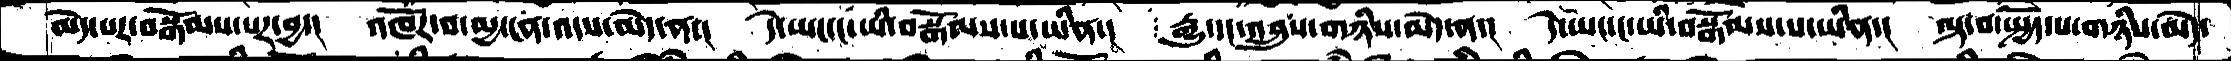མེད་པར་བསྒོམས་པར་བྱ་།  འཁོར་བ་མྱ་ངན་འདས་མེད་ན་།  དེ་ཡང་ང་ཡི་བསྒོམས་པ་ཡིན་།  རྒྱུ་དང་འབྲུས་གཉིས་མེད་ན་།  དེ་ཡང་ང་ཡི་བསྒོམས་པ་ཡིན་།  ལྟ་བ་སྤྱོད་པ་གཉིས་མེད་
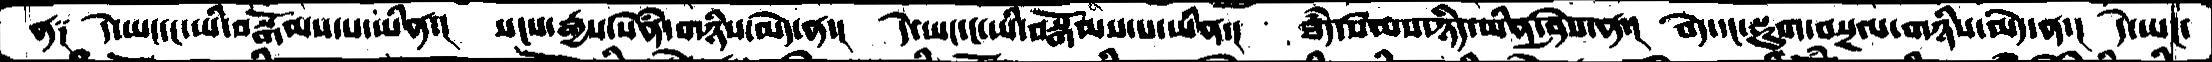ན༑  དེ་ཡང་ང་ཡི་བསྒོམས་པ་ཡིན་།  སངས་རྒྱས་སེཾན་གཉིས་མེད་ན་།  དེ་ཡང་ང་ཡི་བསྒོམས་པ་ཡིན་།  ཐཾད་སེམས་ཉིད་ཡིན་ཤེས་ན་།  བདེ་དང་སྡུག་བསྔལ་གཉིས་མེད་ན་།  དེ་ཡང་
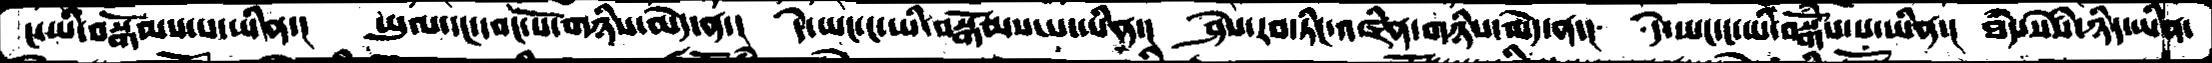ང་ཡི་བསྒོམས་པ་ཡིན་།  ཡུལ་དང་དབང་པོ་གཉིས་མེད་ན་།  དེ་ཡང་ང་ཡི་བསྒོམས་པ་ཡིན་།  ཤེས་རབ་ཏིང་འཛིན་གཉིས་མེད་ན་།  དེ་ཡང་ང་ཡི་བསྒོམས་པ་ཡིན་།  ཐཾད་སེཾས་ཉིད་ཡིན་
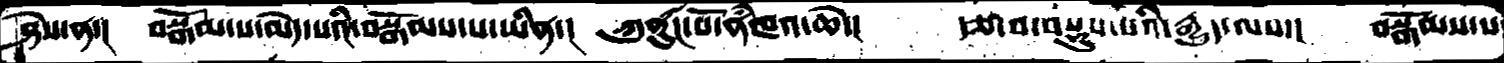ཤེས་ན་།   བསྒོམ་པ་མེད་པའི་བསྒོམས་པ་ཡིན་།   ཀུནུཟང་པོ་ནཾཁའ་ཆེ་།  རྩ་བ་བསྡུས་པའི་རྒྱུད་ལས་།  བསྒོམས་པ་
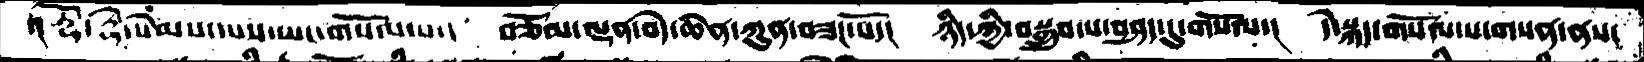་། རྡོ་རྗེ་སེམས་དཔས་ཡང་གསོལ་པ་།  བཅོམ་ལྡན་བདེ་ཆེན་ཀུན་བཟང་པོ་།  ཉིད་ཀྱི་བསྒྲུབ་པ་བཤད་དུ་གསོལ་།  དེ་སྐད་གསོལ་པ་གསན་ནས་
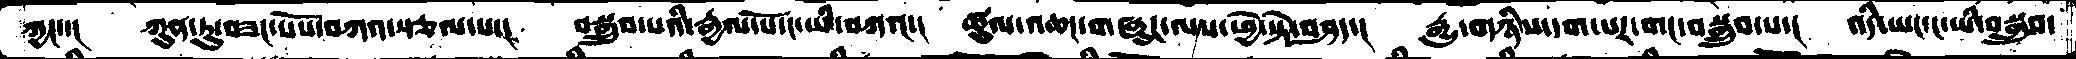ཀྱང་་།   ཀུན་ཏུ་བཟང་པོས་བཀའ་སྩལ་པ་།  བསྒྲུབ་པའི་རྒྱལ་པོ་ང་ཡི་བཀའ་།  ཚུལ་འཆང་གཞུང་ལས་ཕྱེ་སྟེ་བཤད་།  རྒྱུ་གཉིས་དག་པར་གང་བསྒྲུབ་པ་།  འདི་ཡང་ང་ཡི་བསྒྲུབ་
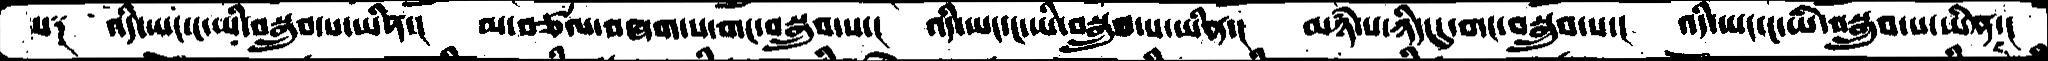པ༑  འདི་ཡང་ང་ཡི་བསྒྲུབ་པ་ཡིན་།  མ་བཙལ་བཞག་པ་གང་བསྒྲུབ་པ་།  འདི་ཡང་ང་ཡི་བསྒྲུབ་པ་ཡིན་།  མཉཾ་པ་ཉིད་དུ་གང་བསྒྲུབ་པ་།  འདི་ཡང་ང་ཡི་བསྒྲུབ་པ་ཡིན་།
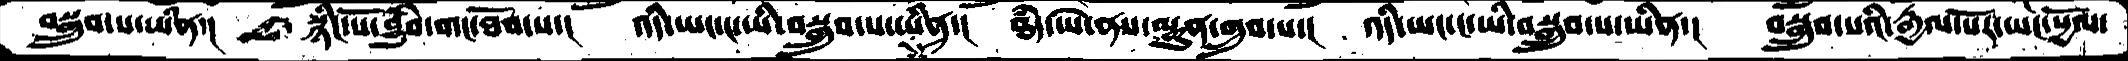བསྒྲུབ་པ་ཡིན་།  སྙིང་པོ་བྱུཾཾབ་གང་ཐོབ་པ་།  འདི་ཡང་ང་ཡི་བསྒྲུབ་པ་ཡིན་།  ཐཾད་ཡེ་ནས་ལྷུན་གྲུབ་པ་།  འདི་ཡང་ང་ཡི་བསྒྲུབ་པ་ཡིན་།   བསྒྲུབ་པའི་རྒྱལ་པོར་ཡང་སྱོལ་
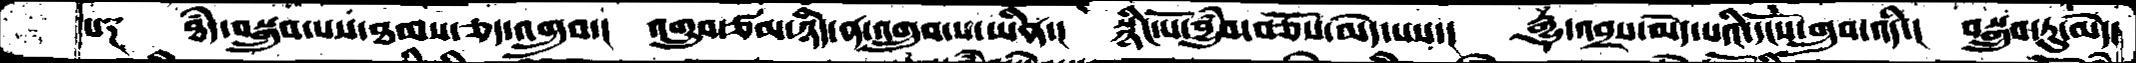པ༑   ཐཾད་བསྒྲུབ་པས་ཐམས་ཅད་འགྲུབ་།  འགྲུབ་ཙམ་ཉིད་ན་འགྲུབ་པ་ཡིན་།  སྙིང་པོ་བྱུཾབ་བཅོས་མེད་པས་།  རྒྱུ་འབྲས་མེད་པའི་དངོས་གྲུབ་འདི་།  བསྒྲུབ་ཏུ་མེད་
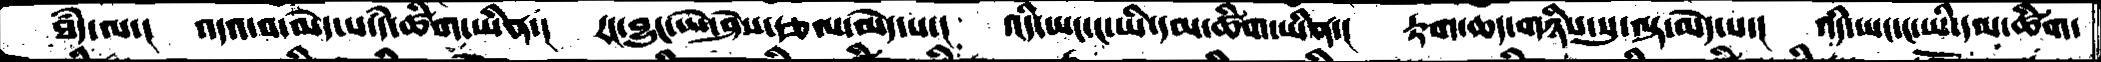ཐཾད་ལ་།  འདའ་བ་མེད་པ་དཾ་ཚིག་ཡིན་།  རང་བྱུང་ཡེ་ཤེས་རྩལ་མེད་པ་།  འདི་ཡང་ང་ཡི་དམ་ཚིག་ཡིན་།  རྟག་ཆད་གཉིས་སུ་ལྟ་མེད་པ་།  འདི་ཡང་ང་ཡི་དམ་ཚིག་
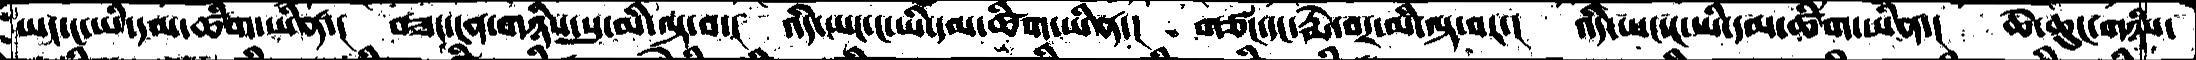ཡང་ང་ཡི་དམ་ཚིག་ཡིན་།  བཟང་ངན་གཉིས་སུ་མི་ལྟ་བ་།  འདི་ཡང་ང་ཡི་དམ་ཚིག་ཡིན་།  གཙང་དང་རྨེ་བར་མི་ལྟ་བར་།  འདི་ཡང་ང་ཡི་དམ་ཚིག་ཡིན་།  ཆེ་ཆུང་གཉིས་
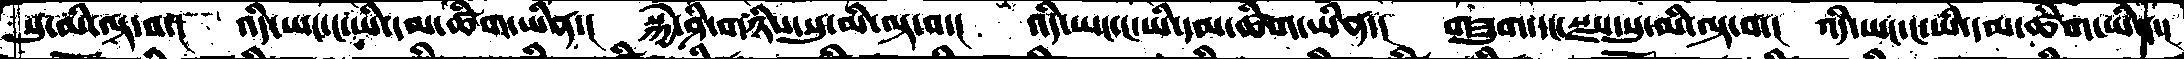སུ་མི་ལྟ་བ་།  འདི་ཡང་ང་ཡི་དམ་ཚིག་ཡིན་།   སྐྱེ་ཤི་གཉིས་སུ་མི་ལྟ་བ་།  འདི་ཡང་ང་ཡི་དམ་ཚིག་ཡིན་།  གཟུག་དང་སྫས་སུ་མི་ལྟ་བ་།  འདི་ཡང་ང་ཡི་དམ་ཚིག་ཡིན་།
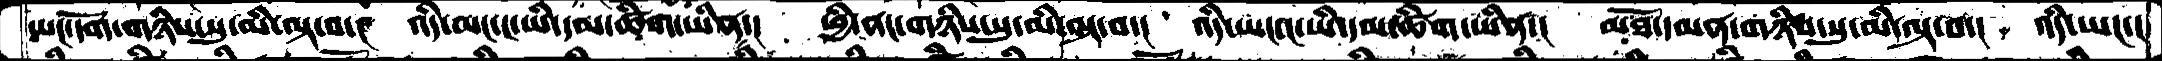ཡང་དོག་གཉིས་སུ་མི་ལྟ་བ་།  འདི་ཡང་ང་ཡི་དམ་ཚིག་ཡིན་།  ཕྱི་ནང་གཉིས་སུ་མི་ལྟ་བ་།  འདི་ཡང་ང་ཡི་དམ་ཚིག་ཡིན་།  མཐོ་དམན་གཉིས་སུ་མི་ལྟ་བ་།  འདི་ཡང་ང
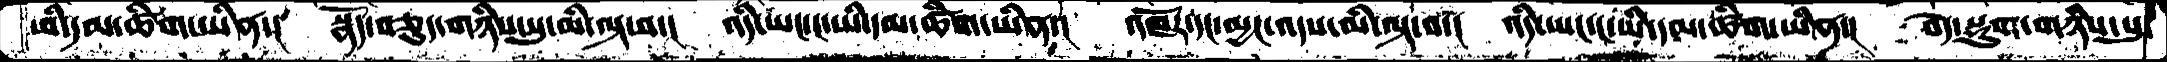ཡི་དམ་ཚིག་ཡིན་།  སྣོད་བཅུད་གཉིས་སུ་མི་ལྟ་བ་།  འདི་ཡང་ང་ཡི་དམ་ཚིག་ཡིན་།  འཁོར་དང་མྱང་འདས་མི་ལྟ་བ་།  འདི་ཡང་ང་ཡི་དམ་ཚིག་ཡིན་།  བདེ་སྡུག་གཉིས་སུ་
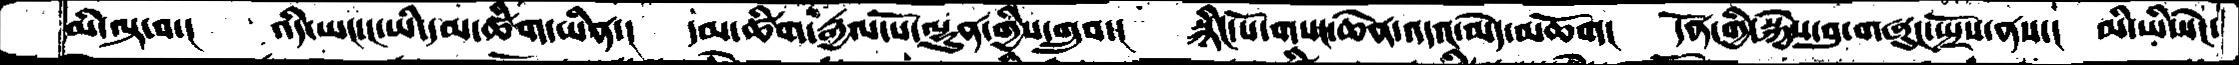མི་ལྟ་བ་།  འདི་ཡང་ང་ཡི་དམ་ཚིག་ཡིན་།  དམ་ཚིག་རྒྱལ་པོ་ལྷུན་གྱིས་གྲུབ་།  སྙིང་པོ་གསང་ཆེན་འདའ་མེད་མཆོག།  དོན་གྱི་སྐྱེས་བུ་གཞུང་སྤྲོས་ནས་།  མི་ཡི་སེང་
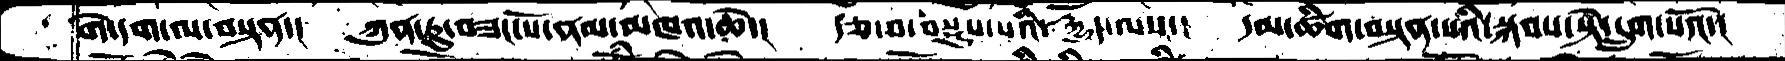གེ་དག་ལ་བསྟན་།  ཀུན་ཏུ་བཟང་པོ་ནམ་མཁའ་ཆེ་།  རྩ་བ་བསྡུས་པའི་རྒྱུད་ལས་།  དམ་ཚིག་བསྟན་པའི་སྐབས་སྟེ་དྲུག་པའོ་།
